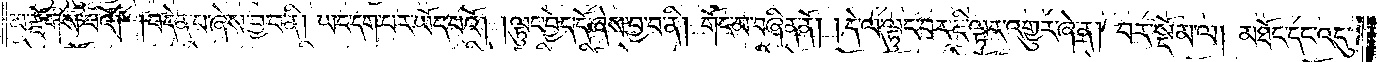མ་རྫོགས་པའོ། །བདེན་པ་ཞེས་བྱ་བ་ནི། ཡང་དག་པར་ཡོད་པའོ། །ལྟུང་བྱེད་དོ་ཞེས་བྱ་བ་ནི། གོང་མ་བཞིན་ནོ། །དེ་ལ་ལྟུང་བར་ཇི་ལྟར་འགྱུར་ཞེ་ན། བར་སྡོམ་ལ། མཐོང་དང་འདུ་
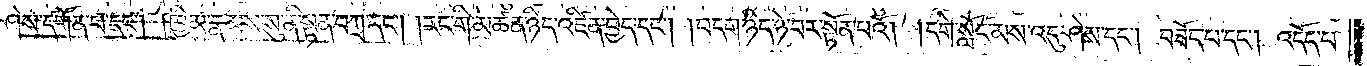ཤེས་དགོན་པ་དང༌། ཁྱིམ་རྣམས་སུ་ནི་སྟན་བཀྲ་དང༌། །རང་གི་མཚན་ཉིད་འཛིན་བྱེད་དང༌། །བདག་ཉིད་ཉེ་བར་སྟོན་པའོ། །དགེ་སློང་མས་འདུ་ཤེས་དང༌། བཟོད་པ་དང༌། འདོད་པ་
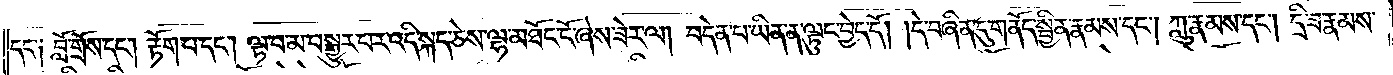དང༌། བློ་གྲོས་དང༌། རྟོག་པ་དང༌། ལྟ་བ་མ་བསྒྱུར་པར་འདི་སྐད་ཅེས་ལྷ་མཐོང་ངོ་ཞེས་ཟེར་ལ། བདེན་པ་ཡིན་ན་ལྟུང་བྱེད་དོ། །དེ་བཞིན་དུ་གནོད་སྦྱིན་རྣམས་དང༌། ཀླུ་རྣམས་དང༌། དྲི་ཟ་རྣམས་
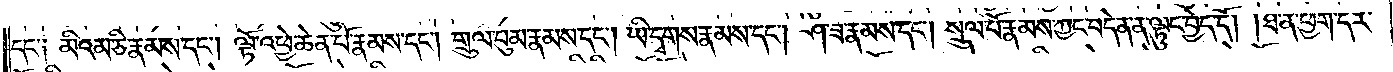དང་༑ མིའམ་ཅི་རྣམས་དང༌། ལྟོ་འཕྱེ་ཆེན་པོ་རྣམས་དང༌། གྲུལ་བུམ་རྣམས་དང༌། ཡི་དྭགས་རྣམས་དང༌། ཤ་ཟ་རྣམས་དང༌། སྲུལ་པོ་རྣམས་ཀྱང་བདེན་ན་ལྟུང་བྱེད་དོ། །ཐ་ན་ཕྱག་དར་
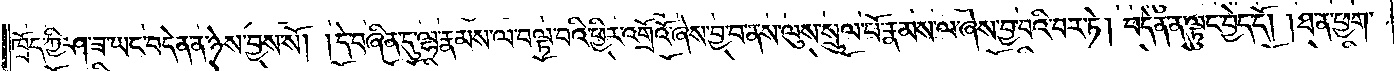ཁྲོད་ཀྱི་ཤ་ཟ་ཡང་བདེན་ན་ཉེས་བྱས་སོ། །དེ་བཞིན་དུ་ལྷ་རྣམས་ལ་བལྟ་བའི་ཕྱིར་འགྲོའོ་ཞེས་བྱ་བ་ནས་ལུས་སྲུལ་པོ་རྣམས་ལ་ཞེས་བྱ་བའི་བར་ཏེ། བདེན་ན་ལྟུང་བྱེད་དོ། །ཐ་ན་ཕྱག་
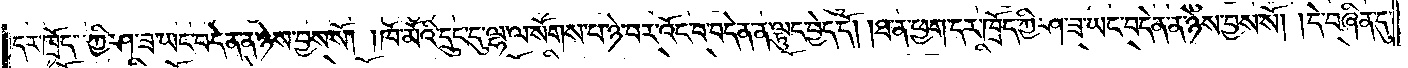དར་ཁྲོད་ཀྱི་ཤ་ཟ་ཡང་བདེན་ན་ཉེས་བྱས་སོ། །ཁོ་མོའི་དྲུང་དུ་ལྷ་ལ་སོགས་པ་ཉེ་བར་འོང་བ་བདེན་ན་ལྟུང་བྱེད་དོ། །ཐ་ན་ཕྱག་དར་ཁྲོད་ཀྱི་ཤ་ཟ་ཡང་བདེན་ན་ཉེས་བྱས་སོ། །དེ་བཞིན་དུ་
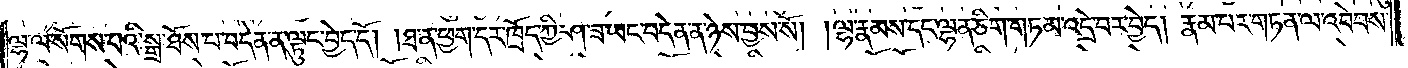ལྷ་ལ་སོགས་པའི་སྒྲ་ཐོས་པ་བདེན་ན་ལྟུང་བྱེད་དོ། །ཐ་ན་ཕྱག་དར་ཁྲོད་ཀྱི་ཤ་ཟ་ཡང་བདེན་ན་ཉེས་བྱས་སོ། །ལྷ་རྣམས་དང་ལྷན་ཅིག་གཏམ་འདྲེ་བར་བྱེད། རྣམ་པར་གཏན་ལ་འབེབས་
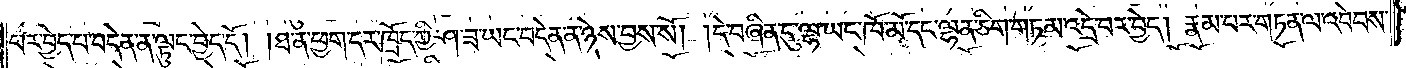པར་བྱེད་པ་བདེན་ན་ལྟུང་བྱེད་དོ། །ཐ་ན་ཕྱག་དར་ཁྲོད་ཀྱི་ཤ་ཟ་ཡང་བདེན་ན་ཉེས་བྱས་སོ། །དེ་བཞིན་དུ་ལྷ་ཡང་ཁོ་མོ་དང་ལྷན་ཅིག་གཏམ་འདྲེ་བར་བྱེད། རྣམ་པར་གཏན་ལ་འབེབས་
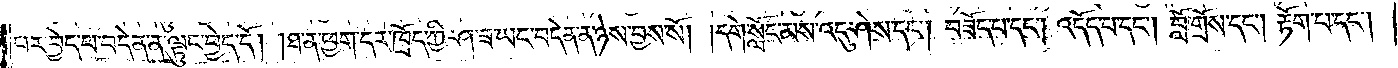པར་བྱེད་པ་བདེན་ན་ལྟུང་བྱེད་དོ། །ཐ་ན་ཕྱག་དར་ཁྲོད་ཀྱི་ཤ་ཟ་ཡང་བདེན་ན་ཉེས་བྱས་སོ། །དགེ་སློང་མས་འདུ་ཤེས་དང༌། བཟོད་པ་དང༌། འདོད་པ་དང༌། བློ་གྲོས་དང༌། རྟོག་པ་དང༌།
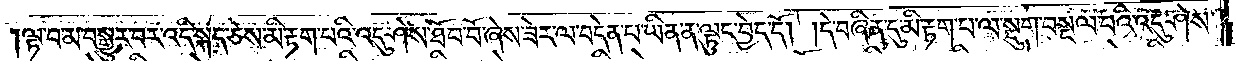།ལྟ་བ་མ་བསྒྱུར་བར་འདི་སྐད་ཅེས་མི་རྟག་པའི་འདུ་ཤེས་ཐོབ་བོ་ཞེས་ཟེར་ལ་བདེན་པ་ཡིན་ན་ལྟུང་བྱེད་དོ། །དེ་བཞིན་དུ་མི་རྟག་པ་ལ་སྡུག་བསྔལ་བའི་འདུ་ཤེས་
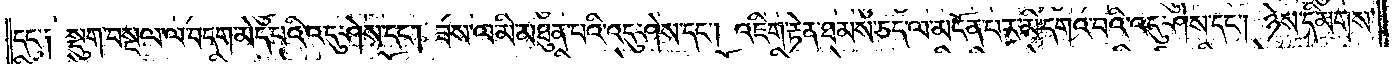དང་༑ སྡུག་བསྔལ་ལ་བདག་མེད་པའི་འདུ་ཤེས་དང༌། ཟས་ལ་མི་མཐུན་པའི་འདུ་ཤེས་དང༌། འཇིག་རྟེན་ཐམས་ཅད་ལ་མངོན་པར་མི་དགའ་བའི་འདུ་ཤེས་དང༌། ཉེས་དམིགས་
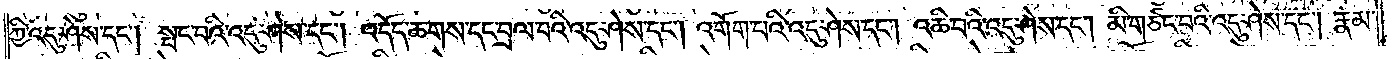ཀྱི་འདུ་ཤེས་དང༌། སྤང་བའི་འདུ་ཤེས་དང༌། འདོད་ཆགས་དང་བྲལ་བའི་འདུ་ཤེས་དང༌། འགོག་པའི་འདུ་ཤེས་དང༌། འཆི་བའི་འདུ་ཤེས་དང༌། མི་གཙང་བའི་འདུ་ཤེས་དང༌། རྣམ་
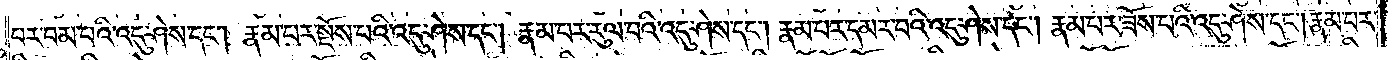པར་བམ་པའི་འདུ་ཤེས་དང༌། རྣམ་པར་སྔོས་པའི་འདུ་ཤེས་དང༌། རྣམ་པར་རུལ་བའི་འདུ་ཤེས་དང༌། རྣམ་པར་དམར་བའི་འདུ་ཤེས་དང༌། རྣམ་པར་ཟོས་པའི་འདུ་ཤེས་དང༌། རྣམ་པར་
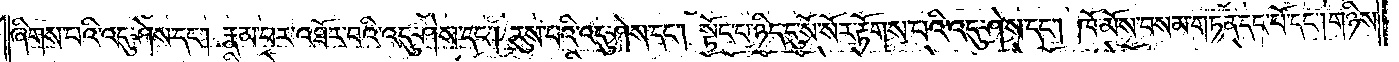ཞིགས་པའི་འདུ་ཤེས་དང༌། རྣམ་པར་འཐོར་བའི་འདུ་ཤེས་དང༌། རུས་པའི་འདུ་ཤེས་དང༌། སྟོང་པ་ཉིད་དུ་སོ་སོར་རྟོགས་པའི་འདུ་ཤེས་དང༌། ཁོ་མོས་བསམ་གཏན་དང་པོ་དང༌། གཉིས་
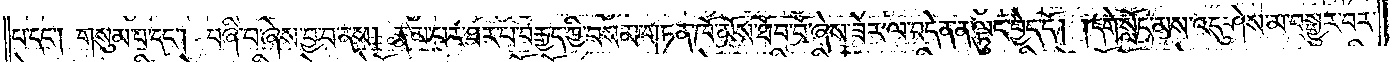པ་དང༌། གསུམ་པ་དང༌། བཞི་བ་ཞེས་བྱ་བ་ནས། རྣམ་པར་ཐར་པ་བརྒྱད་ཀྱི་བསམ་གཏན་ཁོ་མོས་ཐོབ་བོ་ཞེས་ཟེར་ལ་བདེན་ན་ལྟུང་བྱེད་དོ། །དགེ་སློང་མས་འདུ་ཤེས་མ་བསྒྱུར་བར་
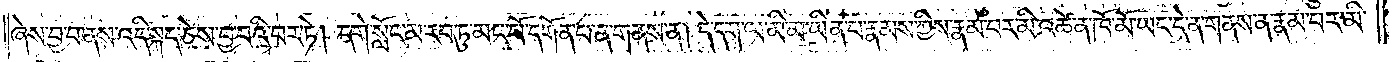ཞེས་བྱ་བ་ནས་འདི་སྐད་ཅེས་བྱ་བའི་བར་ཏེ། དགེ་སློང་མ་རབ་ཏུ་མང་པོ་དགོན་པ་ན་གནས་ན། དེ་དག་ལ་མི་མ་ཡིན་པ་རྣམས་ཀྱིས་རྣམ་པར་མི་འཚེ་ན་ཁོ་མོ་ཡང་དེ་ན་གནས་ན་རྣམ་པར་མི་
